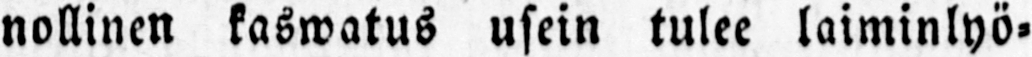nollinen kaswatus usein tulee laiminlyö-
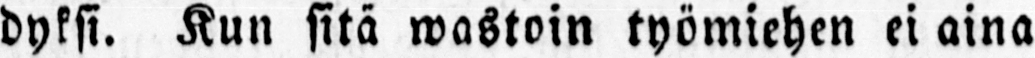dyksi. Kun sitä wastoin työmiehen ei aina
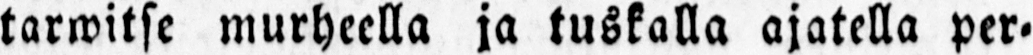tarwitse murheella ja tuskalla ajatella per-
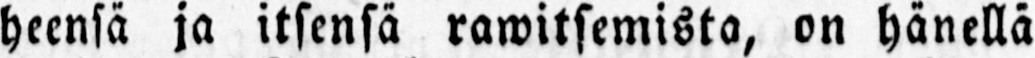heensä ja itsensä rawitsemista, on hänellä
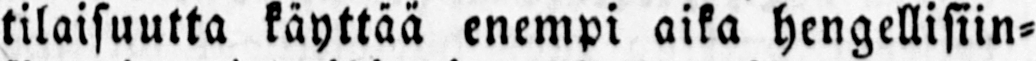tilaisuutta käyttää enempi aika hengellisiin-
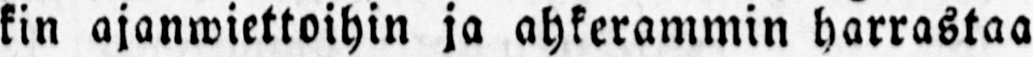kin ajanwiettoihin ja ahkerammin harrastaa
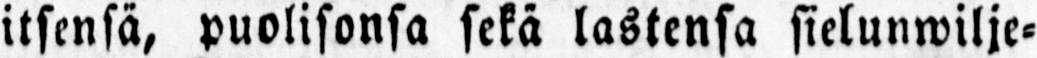itsensä, puolisonsa sekä lastensa sielunwilje-
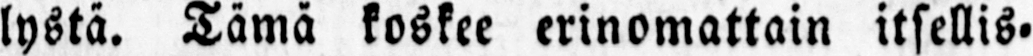lystä. Tämä koskee erinomattain itsellis-
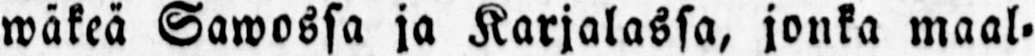wäkeä Sawossa ja Karjalassa, jonka maal-
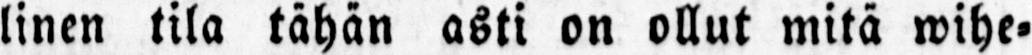linen tila tähän asti on ollut mitä wihe-
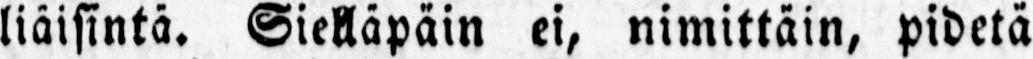liäisintä. Sielläpäin ei, nimittäin, pidetä
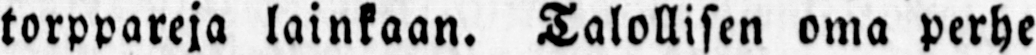torppareja lainkaan. Talollisen oma perhe
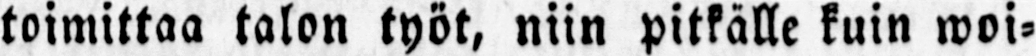toimittaa talon työt, niin pitkälle kuin woi-
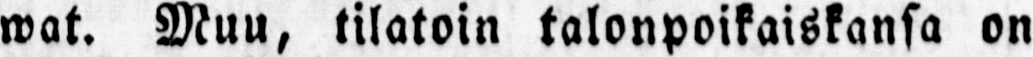wat. Muu, tilatoin talonpoikaiskansa on
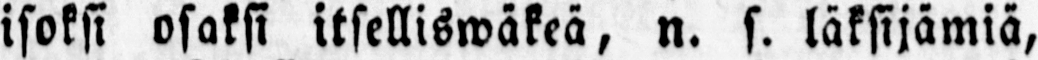isoksi osaksi itselliswäkeä, n. s. läksijämiä,
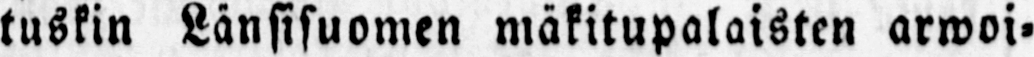tuskin Länsisuomen mäkitupalaisten arwoi-
